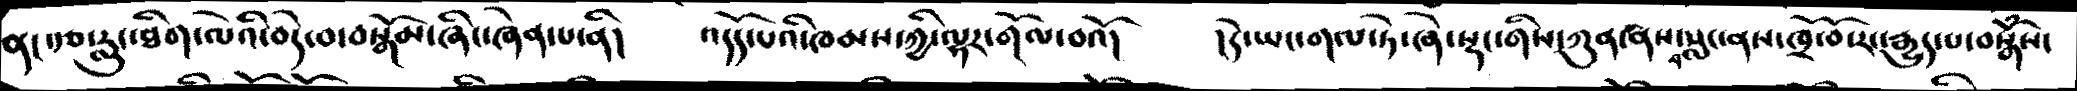ནང་རྩ་རླུང་ཐིག་ལེའི་བདེ་བ་བསྒོམ་ཞིང་ཞེན་པ་ནི།    འདོད་པའི་ཁམས་ཀྱི་ལྷར་གོལ་བའོ།    །དེ་ཡང་གལ་ཏེ་ཞེ་སྡང་གིས་ཀུན་ནས་བསླང་ནས་ཁྲོ་བོ་རང་རྒྱུད་པ་བསྒོཾས་
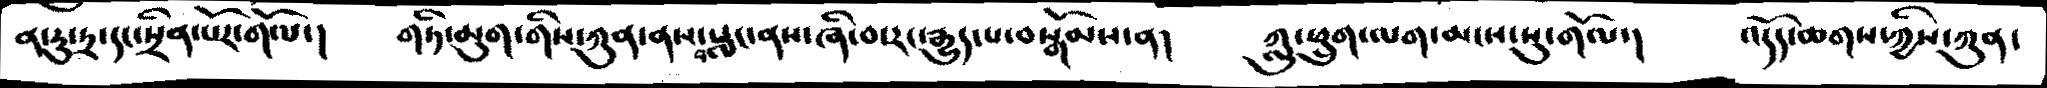ན་རུ་ཏྲ་དང་སྲིན་པོར་གོལ་།   གཏི་མུག་གིས་ཀུན་ནས་བསླང་ནས་ཞི་བ་རང་རྒྱུད་པ་བསྒོམས་ན།    ཀླུ་ཕྲུག་ལག་མངས་སུ་གོལ་།   འདོད་ཆགས་ཀྱིས་ཀུན་
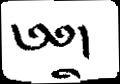༄༅།
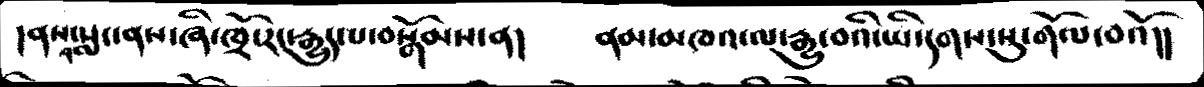།ནས་བསླང་ནས་ཞི་ཁྲོ་རང་་རྒྱུད་པ་བསྒོམས་ན།    ནམ་མཁའ་ལ་རྒྱུ་བའི་ཡི་དགས་སུ་གོལ་བའོ།།
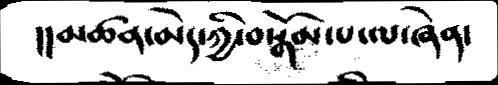།།མཚན་མེད་ཀྱི་བསྒོམ་པ་ལ་ཞེན་
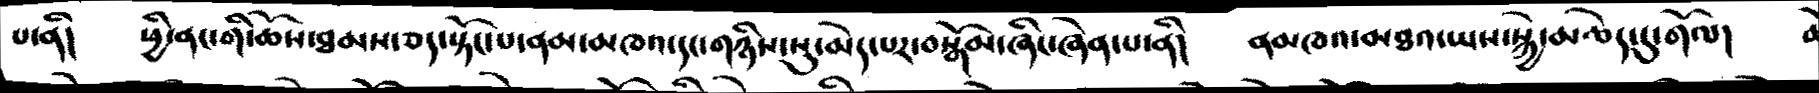པ་ནི།   ཕྱིན་ནང་གི་ཆོས་ཐམས་ཅད་སྟོང་པ་ནམ་མཁའ་དང་གཉིས་སུ་མེད་པར་བསྒོམ་ཞིང་ཞེན་པ་ནི།   ནམཁའ་མཐའ་ཡས་སྐྱེ་མཆེད་དུ་གོལ།
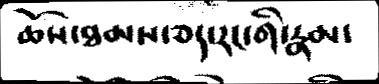ཆོས་ཐམས་ཅད་རང་གི་རྣམ་
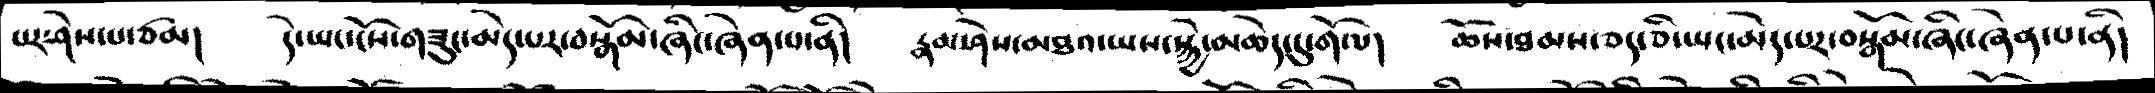པར་ཤེས་པ་ཙམ།   དེ་ཡང་ངོས་གཟུང་མེད་པར་བསྒོམ་ཞིང་ཞེན་པ་ནི།   རྣམ་ཤེས་མཐའ་ཡས་སྐྱེ་མཆེད་དུ་གོལ།  ཆོས་ཐམས་ཅད་ཅི་ཡང་མེད་པར་བསྒོམ་ཞིང་ཞེན་པ་ནི།
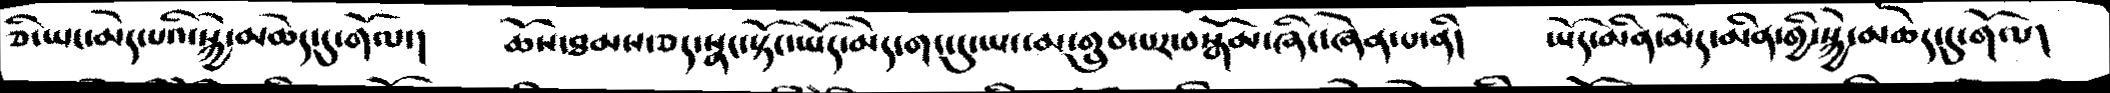ཅི་ཡང་མེད་པའི་སྐྱེ་མཆེད་དུ་གོལ་།   ཆོས་ཐམས་ཅད་སྣང་སྟོང་ཡོད་མེད་དག་དུ་ཡང་མ་གྲུབ་པར་བསྒོམ་ཞིང་ཞེན་པ་ནི།   ཡོད་མིན་མེད་མིན་གྱི་སྐྱེ་མཆེད་དུ་གོལ།
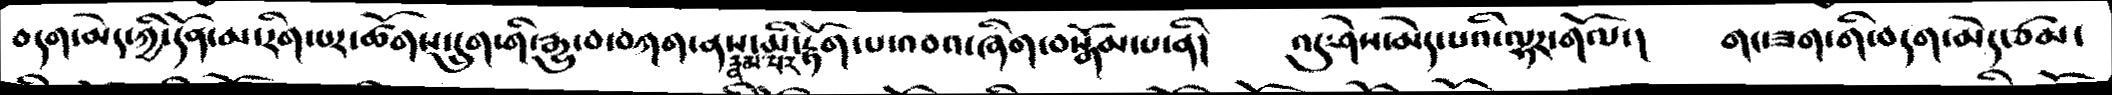བདག་མེད་ཀྱི་དོན་མ་རིག་པར་ཚོགས་དྲུག་གི་རྒྱུ་བ་བཀག་ནས་རྣམ་པར་མི་རྟོག་པ་འབའ་ཞིག་བསྒོམ་པ་ནི།   འདུ་ཤེས་མེད་པའི་ལྷར་གོལ་།   གང་ཟག་གི་བདག་མེད་ཙམ་
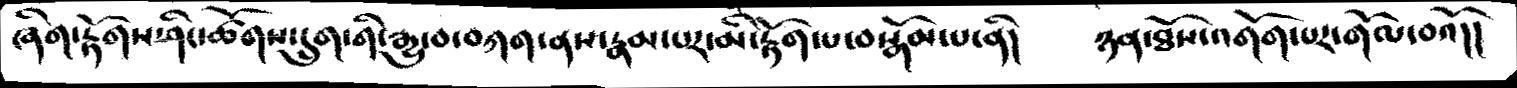ཞིག་རྟོགས་ཤིང་ཚོགས་དྲུག་གི་རྒྱུ་བ་བཀག་་ནས་རྣམ་པར་མི་རྟོག་པ་བསྒོམ་པ་ནི།   ཉན་ཐོས་འགོག་པར་གོལ་བའོ།།
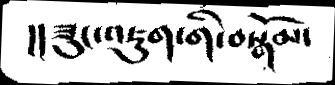།།ཟུང་འཇུག་གི་བསྒོམ་
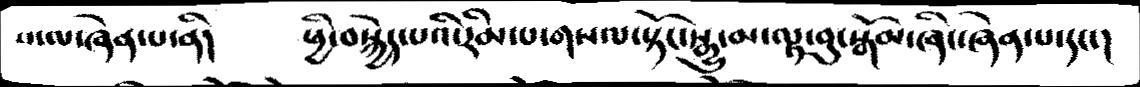ས་ལ་ཞེན་པ་ནི།    ཕྱི་བསྐྱེད་པའི་རིམ་པ་གསལ་སྟོང་སྒྱུ་མ་ལྟ་བུ་སྒོམ་ཞིང་ཞེན་པ་དང་།
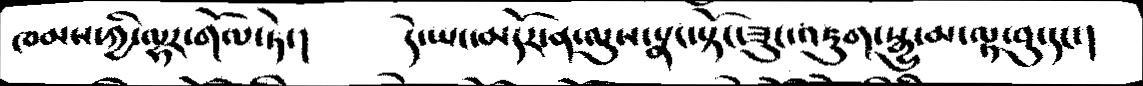ཁམས་ཀྱི་ལྷར་གོལ་ཏེ་།   དེ་ཡང་མདོར་ན་ལུས་སྣང་སྟོང་ཟུང་འཇུག་སྒྱུ་མ་ལྟ་བུ་དང་།
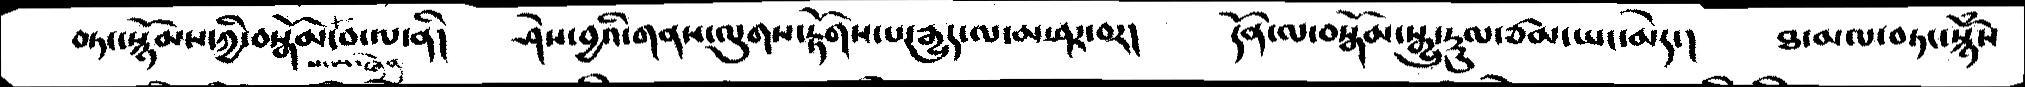བཏང་སྙོམས་ཀྱི་བསྒོམ་པ་ལ་ནི།   ཤེས་བྱའི་གནས་ལུགས་རྟོགས་པ་རྒྱུད་ལ་མ་ཤར་བར།   དོན་ལ་བསྒོམ་སྒྱུ་རྡུལ་ཙམ་ཡང་མེད་།   ཐ་མལ་བཏང་སྙོཾས་
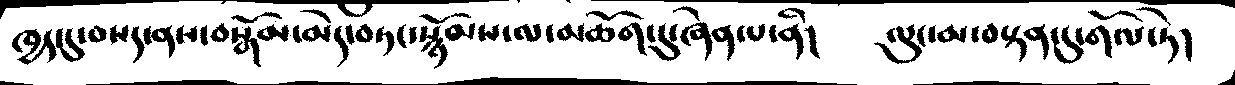ཁྱད་དུ་བསད་ནས་བསྒོམ་མེད་བཏང་སྙོམས་ལ་མཆོག་དུ་ཞེན་པ་ནི།    ལུང་མ་བསྟན་དུ་གོལ་ཏེ།
